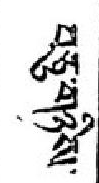བཅུ་གཉིས་
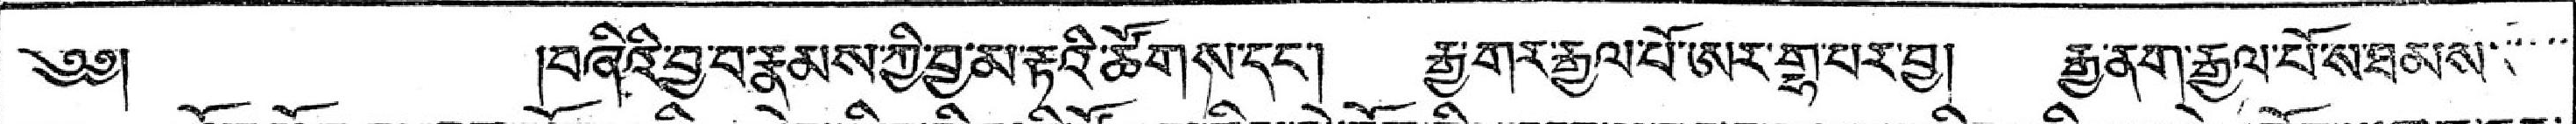༄༅། བཞིའི་བྱ་བ་རྣམས་ཀྱི་བྱ་མ་རྟའི་ཚོགས་དང་། རྒྱ་གར་རྒྱལ་པོ་ཨར་གྷ་པར་བྱ། རྒྱ་ནག་རྒྱལ་པོས་སཐམས་་་་
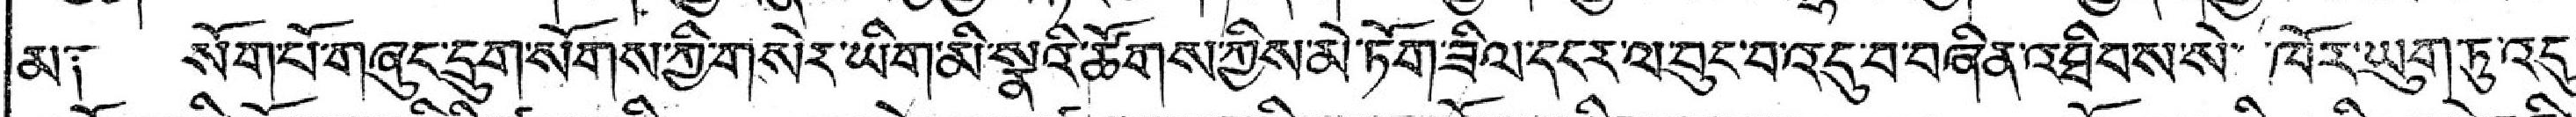མ༑ སོག་པོ་གཞུང་དྲུག་སོགས་ཀྱི་གསེར་ཡིག་མི་སྣའི་ཚོགས་ཀྱིས་མེ་ཏོག་ཟིལ་དངར་ལ་བུང་བ་འདུ་བ་བཞིན་འཐིབས་སེ་ ་འཁོར་ཡུག་ཏུ་འདུ་
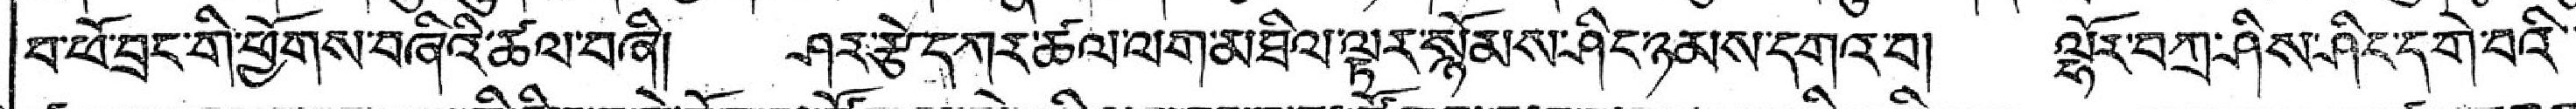བ་ཕོ་བྲང་གི་ཕྱོགས་བཞིའི་ཚལ་བཞི། ཤར་རྩེ་དཀར་ཚལ་ལག་མཐིལ་ལྟར་སྙོམས་ཤིང་ཉམས་དགའ་བ། ལྷོར་བཀྲ་ཤིས་ཤིང་དགེ་བའི་་
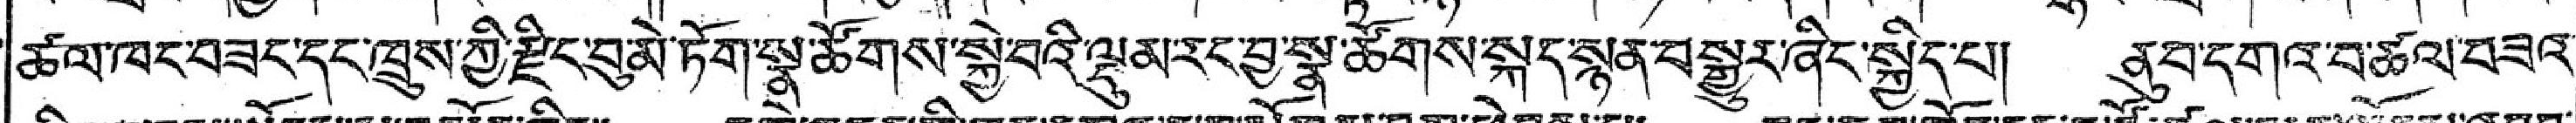ཚལ་ཁང་བཟང་དང་ཁྲུས་ཀྱི་རྫིང་བུ་མེ་ཏོག་སྣ་ཚོགས་སྐྱེ་བའི་ལྡུམ་རང་བྱ་སྣ་ཚོགས་སྐད་སྙན་བསྒྱུར་ཞིང་སྐྱིད་པ། ནུབ་དགའ་བ་ཚལ་བཟའ་
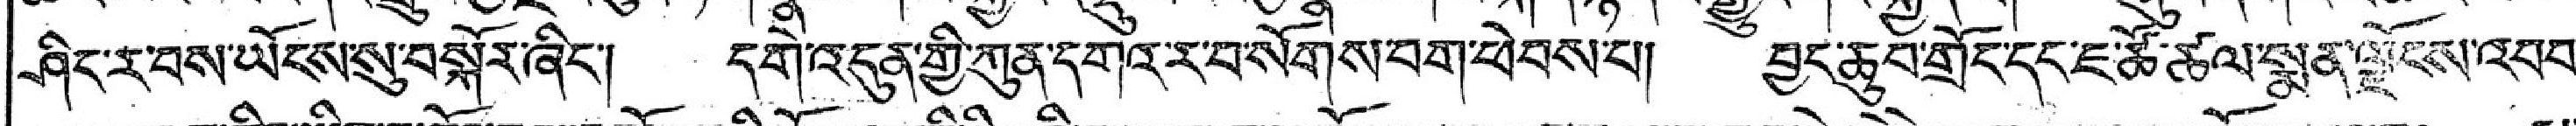ཤིད་ར་བས་ཡོངས་སུ་བསྐོར་ཞིང་། དགེ་འདུན་གྱི་ཀུན་དགའ་ར་བ་སོགས་བག་ཕེབས་པ། བྱད་ཆུབ་གྲོང་དང་ཇ་ཚོ་ཚུལ་སྨན་ལྗོངས་འབབ་
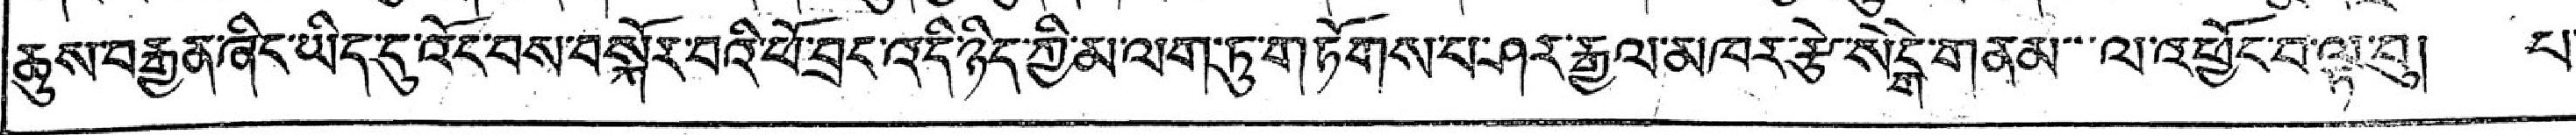ཆུས་བརྒྱན་ཞིང་ཡིད་དུ་འོང་བས་བསྐོར་བའི་ཕོ་བྲང་འདི་ཉིད་ཀྱི་མ་ལག་ཏུ་གཏོགས་པ་ཤར་རྒྱལ་མཁར་རྩེ་སེངྒེ་གནམ་་་ལ་འཕྱོང་བ་ལྟ་བུ། པ་
